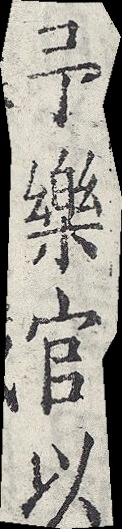予樂官以
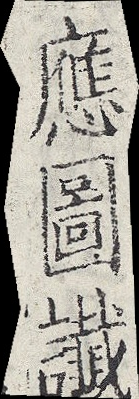應圖讖
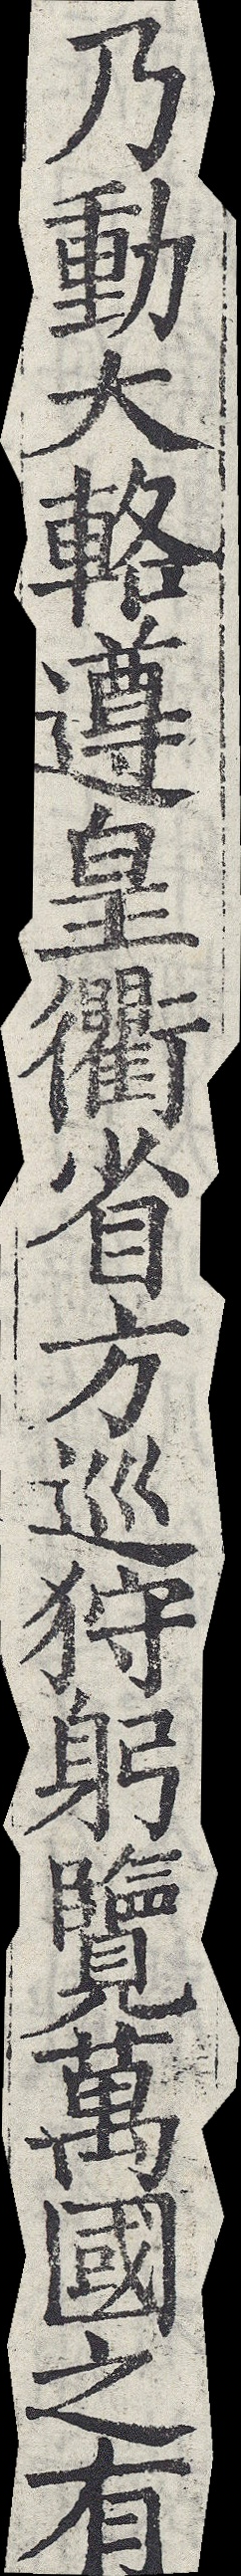乃動大輅遵皇衢省方巡狩躬覽萬國之有
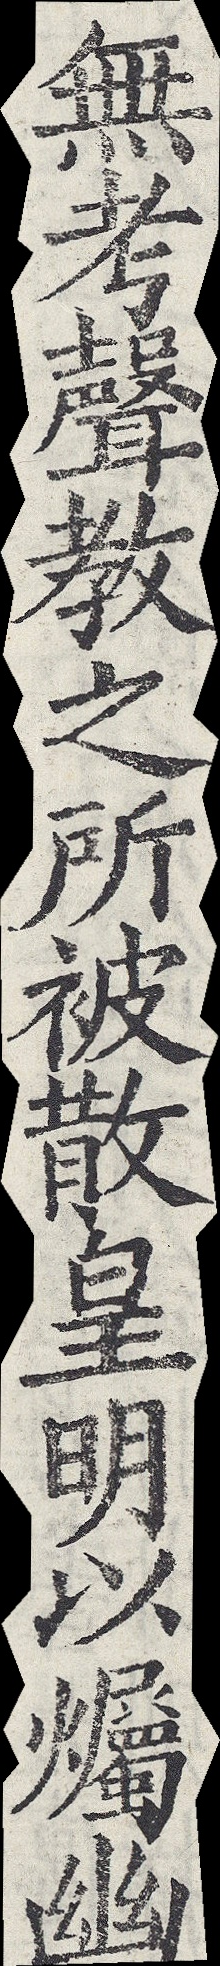無考聲教之所被散皇明以爥幽
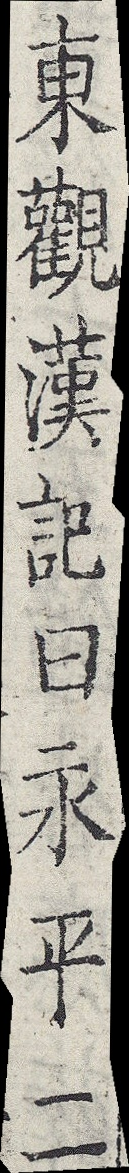東觀漢記曰永平二
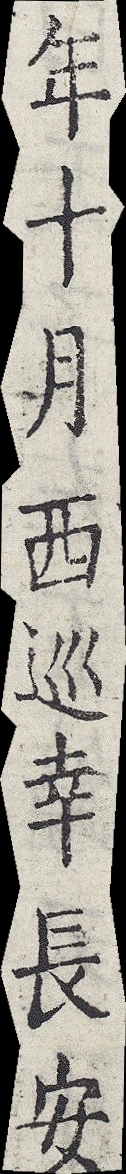年十月西巡幸長安
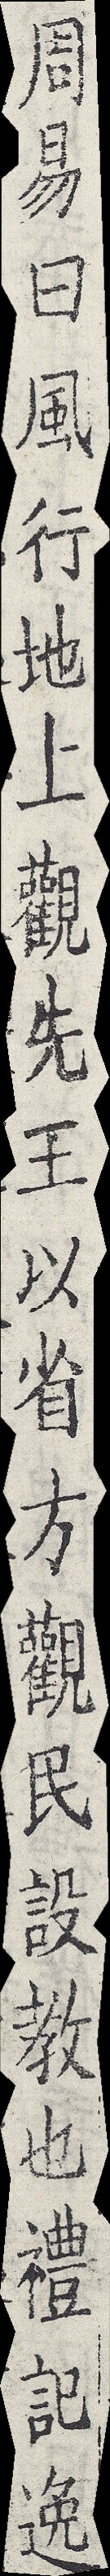周易曰風行地上觀先王以省方觀民設教也禮記逸
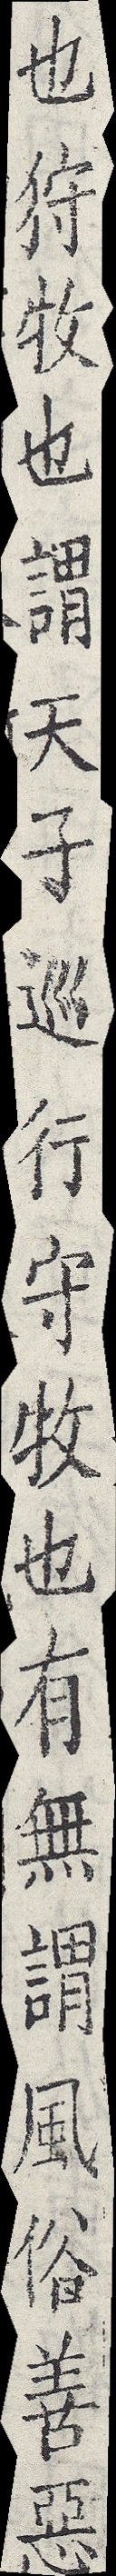也狩牧也謂天子巡行守牧也有無謂風俗善惡
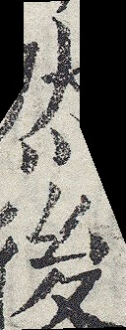然後
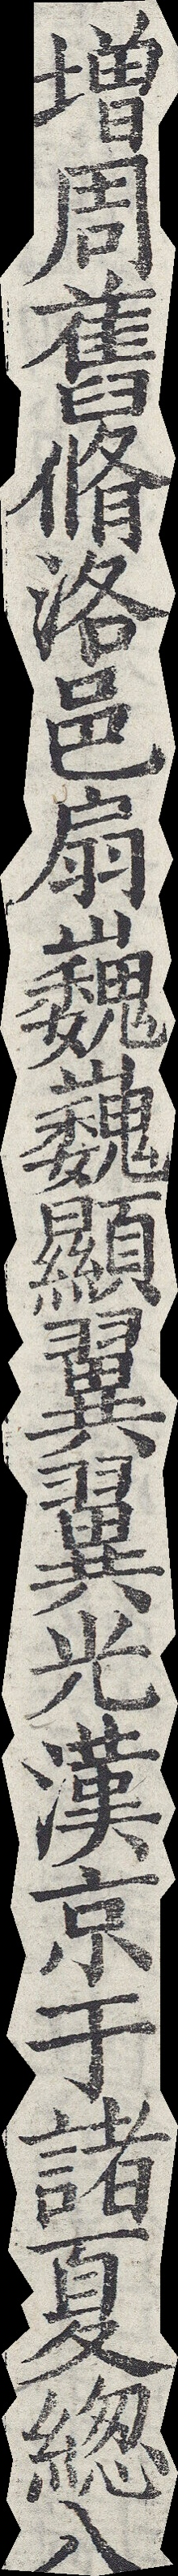增周舊脩洛邑扇巍巍顯翼翼光漢京于諸夏總八
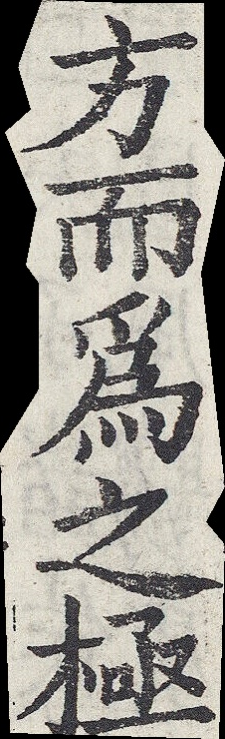方而為之極
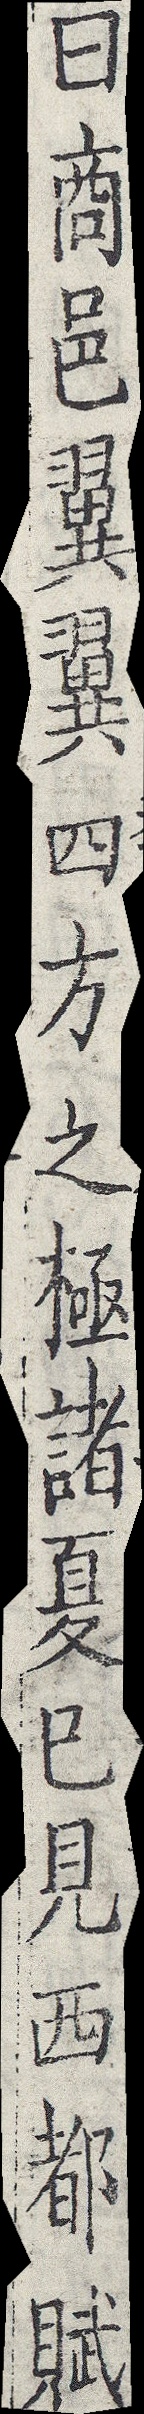曰商邑翼翼四方之極諸夏已見西都賦
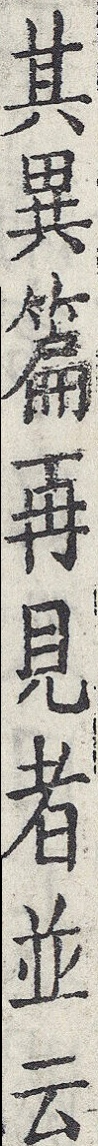其異篇再見者並云
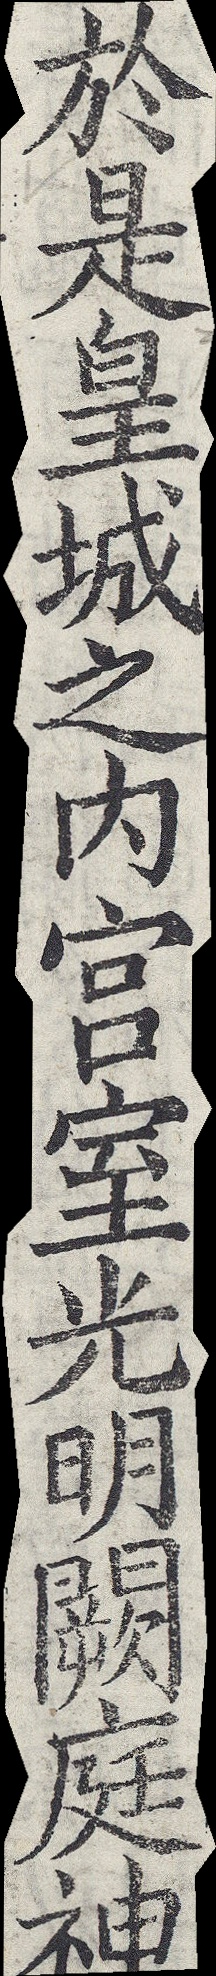於是皇城之內宮室光明闕庭神
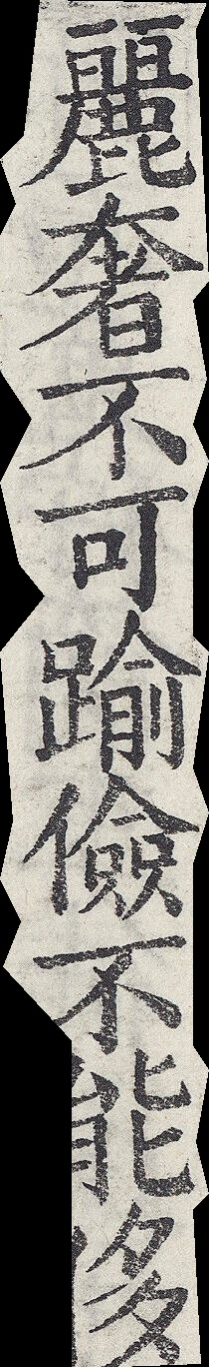麗奢不可踰儉不能侈
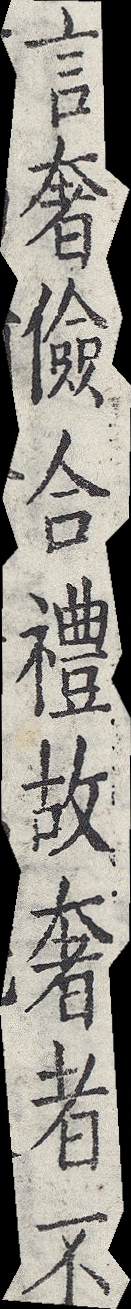言奢儉合禮故奢者不
